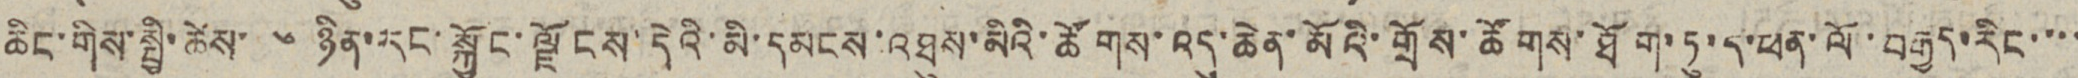ཆིང་གིས་སྤྱི་ཚེས་ ༦ ཉིན་རང་སྐྱོང་ལྗོངས་དེའི་མི་དམངས་འཐུས་མིའི་ཚོགས་འདུ་ཆེན་མོའི་གྲོས་ཚོགས་ཐོག་ཏུ་ད་ཕན་ལོ་བརྒྱད་རིང་་་་
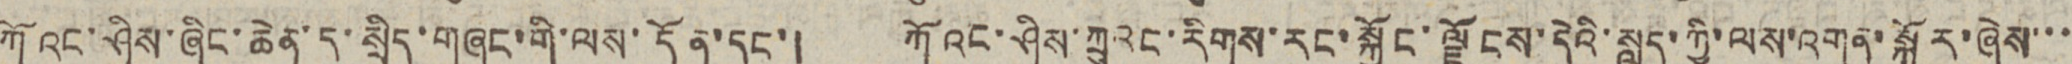ཀོའང་ཤིས་ཞིང་ཆེན་དུ་སྲིད་གཞུང་གི་ལས་དོན་དང་། ཀོའང་ཤིས་ཀྲུའང་རིགས་རང་སྐྱོང་ལྗོངས་དེའི་སླད་ཀྱི་ལས་འགན་སྐོར་ཞེས་་་
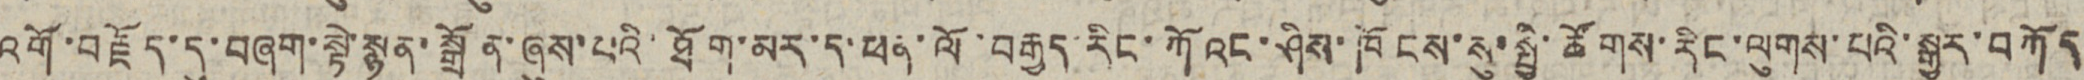འགོ་བརྗོད་དུ་བཞག་སྟེ་སྙན་སྒྲོན་ཞུས་པའི་ཐོག་མར་ད་ཕན་ལོ་བརྒྱད་རིང་ཀོའང་ཤིས་ཁོངས་སུ་སྤྱི་ཚོགས་རིང་ལུས་པའི་སྒྱུར་བཀོད
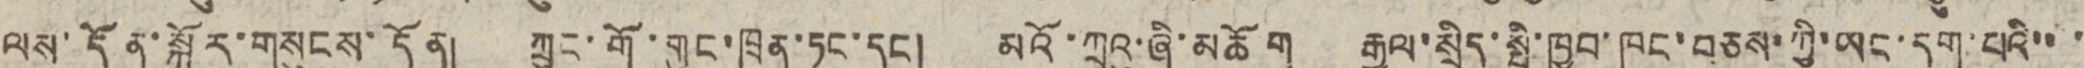ལས་དོན་སྐོར་གསུངས་དོན། ཀྲུང་གོ་གུང་ཁྲན་ཏང་དང། མའོ་ཀྲུའུ་ཞི་མཆོག རྒྱལ་སྲིད་སྤྱི་ཁྱབ་ཁང་བཅས་ཀྱི་ཡང་དག་པའི་་་
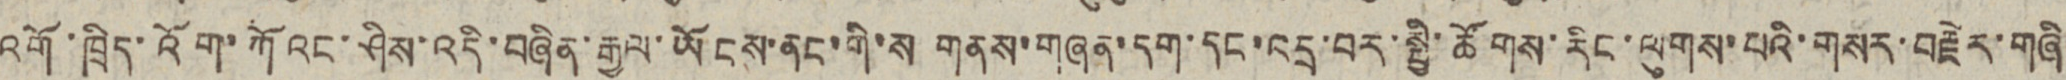འགོ་ཁྲིད་འོག་ཀོའང་ཤིས་འདི་བཞིན་རྒྱལ་ཡོངས་ནང་གི་ས གནས་གཞན་དག་དང་འདྲ་བར་སྤྱི་ཚོགས་རིང་ལུགས་པའི་གསར་བརྗེར་
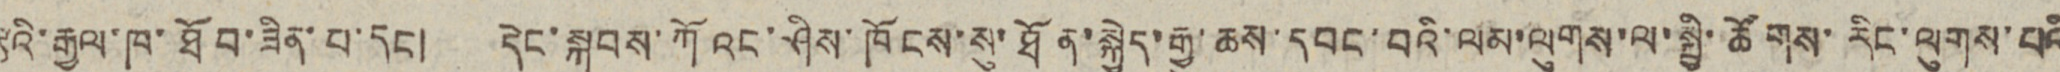རྩའི་རྒྱལ་ཁ་ཐོབ་ཟིན་པ་དང། དེང་སྐབས་ཀོའང་ཤིས་ཁོངས་སུ་ཐོན་སྐྱེད་རྒྱུ་ཆས་དབང་བའི་ལམ་ལུགས་ལ་སྤྱི་ཚོགས་རིང་ལུགས་པའི
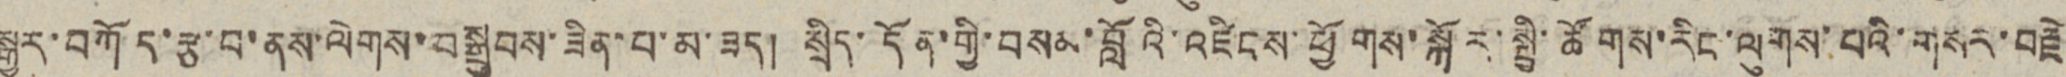སྒྱུར་བཀོད་རྩ་བ་ནས་ལེགས་བསྒྲུབས་ཟིན་པ་མ་ཟད། སྲིད་དོན་གྱི་བསམ་བློའི་འཛིངས་ཕྱོགས་སྐོར་སྤྱི་ཚོགས་རིང་ལུགས་པའི་གསར་བརྗེ་
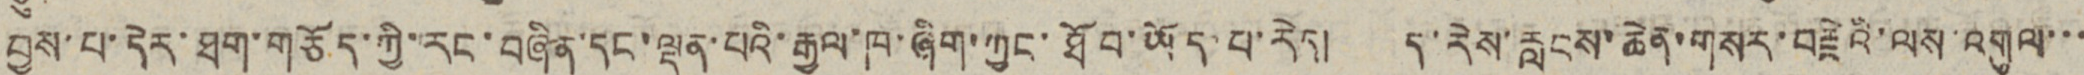བྱས་པ་དེར་ཐག་གཅོད་ཀྱི་རང་བཞིན་དང་ལྡན་པའི་རྒྱལ་ཁ་ཞིག་ཀྱང་ཐོབ་ཡོད་པ་རེད། ད་རེས་རླངས་ཆེན་གསར་བརྗེའི་ལས་འགུལ་་་
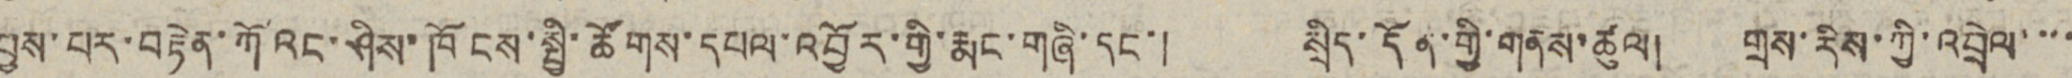བྱས་པར་བརྟེན་ཀོའང་ཤིས་ཁོངས་སྤྱི་ཚོགས་དཔལ་འབྱོར་གྱི་རྨང་གཞི་དང་། སྲིད་དོན་གྱི་གནས་ཚུལ། གྲས་རིས་ཀྱི་འབྲེལ་་་་
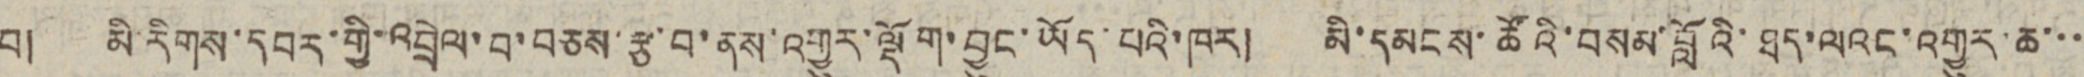བ། མི་རིགས་དབར་གྱི་འབྲེལ་བ་བཅས་རྩ་བ་ནས་འགྱུར་ལྡོག་བྱུང་ཡོད་པའི་ཁར། མི་དམངས་ཚོའི་བསམ་བློའི་ཐད་ལའང་འགྱུར་ཆ་་་
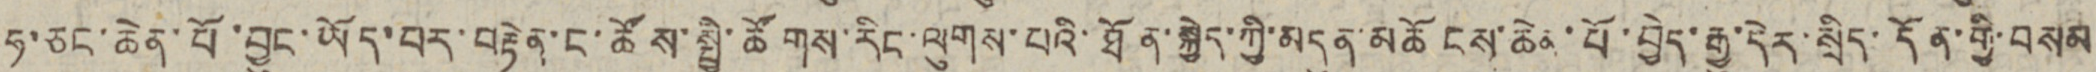ཧ་ཅང་ཆེན་པོ་བྱུང་ཡོད་པར་བརྟེན་ང་ཚོས་སྤྱི་ཚོགས་རིང་ལུགས་པའི་ཐོན་སྐྱེད་ཀྱི་མདུན་མཆོངས་ཆེན་པོ་བྱེད་རྒྱུ་དེར་སྲིད་དོན་གྱི་བསམ
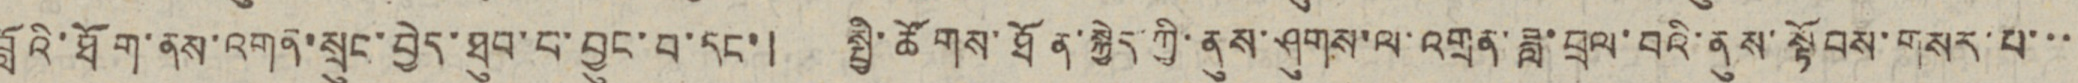བློའི་ཐོག་ནས་འགན་སྲུང་བྱེད་ཐུབ་པ་བྱུང་བ་དང་། སྤྱི་ཚོགས་ཐོན་སྐྱེད་ཀྱི་ནུས་ཤུགས་ལ་འགྲན་ཟླ་བྲལ་བའི་ནུས་སྟོབས་གསར་པ་་་
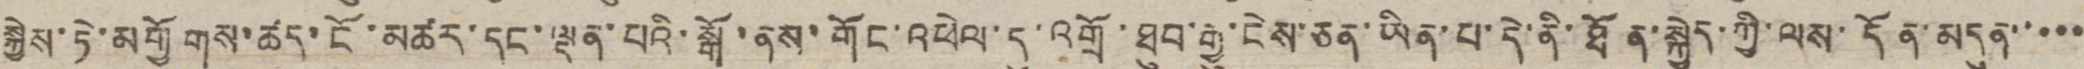སྐྱེས་ཏེ་མགྱོགས་ཚད་ངོ་མཚར་དང་ལྡན་པའི་སྒོ་ནས་གོང་འཕེལ་དུ་འགྲོ་ཐུབ་རྒྱུ་ངེས་ཅན་ཡིན་པ་དེ་ནི་ཐོན་སྐྱེད་ཀྱི་ལས་དོན་མདུན་་་་་
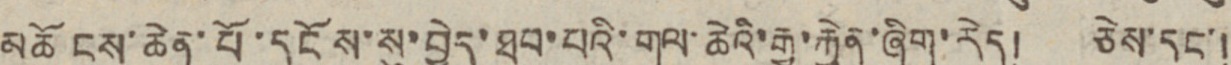མཆོངས་ཆེན་པོ་དངོས་སུ་བྱེད་ཐུབ་པའི་གལ་ཆེའི་རྒྱུ་རྐྱེན་ཞིག་རེད། ཅེས་དང་།
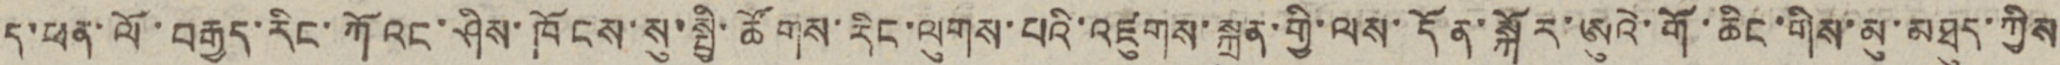ད་ཕན་ལོ་བརྒྱད་རིང་ཀོའང་ཤིས་ཁོངས་སུ་སྤྱི་ཚོགས་རིང་ལུགས་པའི་འཛུགས་སྐྲུན་གྱི་ལས་དོན་སྐོར་ཨུའེ་གོ་ཆིང་གིས་མུ་མཐུད་ཀྱིས
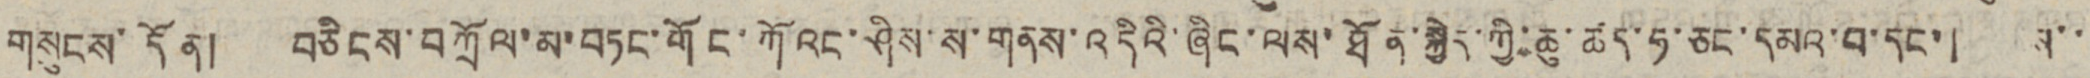གསུངས་དོན། བཅིངས་བཀྲོལ་མ་བཏང་གོང་ཀོའང་ཤིས་ས་གནས་འདིའི་ཞིང་ལས་ཐོན་སྐྱེད་ཀྱི་ཆུ་ཚད་ཧ་ཅང་དམའ་བ་དང་། ས་་
